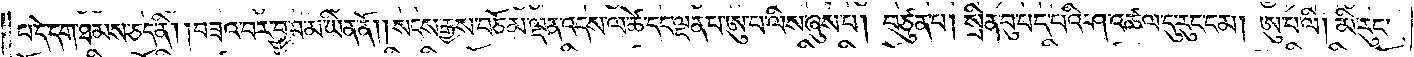པ་དེ་དག་ཐམས་ཅད་ནི། །བཟའ་བར་བྱ་བ་མ་ཡིན་ནོ། །སངས་རྒྱས་བཅོམ་ལྡན་འདས་ལ་ཚེ་དང་ལྡན་པ་ཨུ་པ་ལིས་ཞུས་པ། བཙུན་པ། སྲིན་བུ་པད་པའི་ཤ་འཚལ་དུ་རུང་ངམ། ཨུ་པ་ལི། མི་རུང་
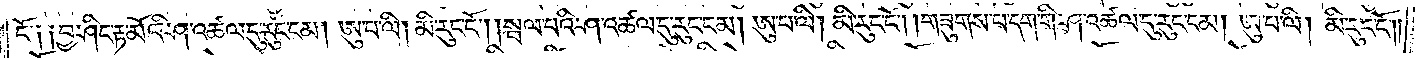ངོ༑ ༑བྱ་ཤིང་རྟ་མོའི་ཤ་འཚལ་དུ་རུང་ངམ། ཨུ་པ་ལི། མི་རུང་ངོ༌། །སྦལ་པའི་ཤ་འཚལ་དུ་རུང་ངམ། ཨུ་པ་ལི། མི་རུང་ངོ༌། །གཟུགས་པ་དག་གི་ཤ་འཚལ་དུ་རུང་ངམ། ཨུ་པ་ལི། མི་རུང་ངོ༌། །
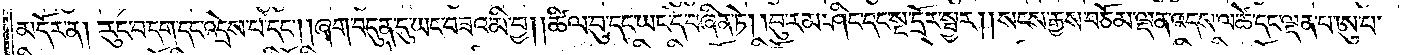མདོར་ན། རུང་བ་དག་དང་འདྲེས་པ་དང༌། །ཞག་བདུན་དུ་ཡང་བཟའ་མི་བྱ། །ཚིལ་བུ་དང་ཡང་དེ་བཞིན་ཏེ། །བུ་རམ་ཤིང་དང་སྔ་དྲོར་སྦྱར། །སངས་རྒྱས་བཅོམ་ལྡན་འདས་ལ་ཚེ་དང་ལྡན་པ་ཨུ་པ་
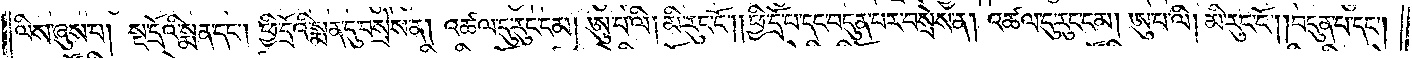ལིས་ཞུས་པ། སྔ་དྲོའི་སྨན་དང༌། ཕྱི་དྲོའི་སྨན་དུ་བསྲེས་ན། འཚལ་དུ་རུང་ངམ། ཨུ་པ་ལི། མི་རུང་ངོ༌། །ཕྱི་དྲོ་པ་དང་བདུན་པར་བསྲེས་ན། འཚལ་དུ་རུང་ངམ། ཨུ་པ་ལི། མི་རུང་ངོ༌། །བདུན་པ་དང༌།
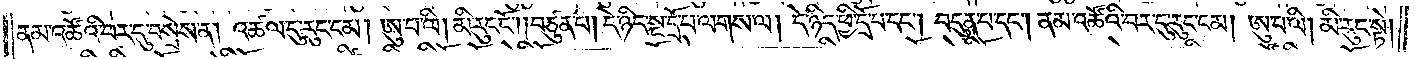ནམ་འཚོའི་བར་དུ་བསྲེས་ན། འཚལ་དུ་རུང་ངམ། ཨུ་པ་ལི། མི་རུང་ངོ༌། །བཙུན་པ། དེ་ཉིད་སྔ་དྲོ་པ་ལགས་ལ། དེ་ཉིད་ཕྱི་དྲོ་བ་དང༌། བདུན་པ་དང༌། ནམ་འཚོའི་བར་དུ་རུང་ངམ། ཨུ་པ་ལི། མི་རུང་སྟེ།
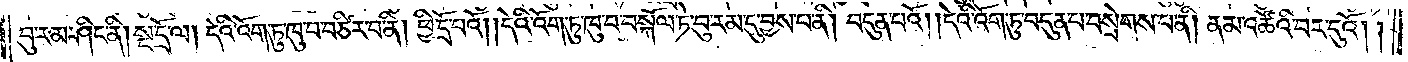བུ་རམ་ཤིང་ནི། སྔ་དྲོ་ལ། དེའི་འོག་ཏུ་ཁུ་བ་བཙིར་བ་ནི། ཕྱི་དྲོ་བའོ། །དེའི་འོག་ཏུ་ཁུ་བ་བསྐོལ་ཏེ་བུ་རམ་དུ་བྱས་པ་ནི། བདུན་པའོ། །དེའི་འོག་ཏུ་བདུན་པ་བསྲེགས་པ་ནི། ནམ་འཚོའི་བར་དུའོ། །
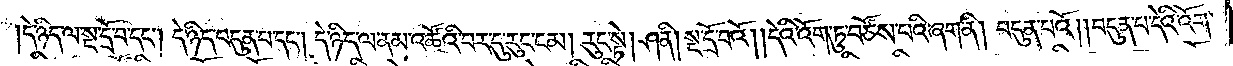དེ་ཉིད་ལ་སྔ་དྲོ་བ་དང༌། དེ་ཉིད་བདུན་པ་དང༌། དེ་ཉིད་ལ་ནམ་འཚོའི་བར་དུ་རུང་ངམ། རུང་སྟེ། ཤ་ནི། སྔ་དྲོ་བའོ། །དེའི་འོག་ཏུ་བཙོས་པའི་ཞག་ནི། བདུན་པའོ། །བདུན་པ་དེའི་འོག་
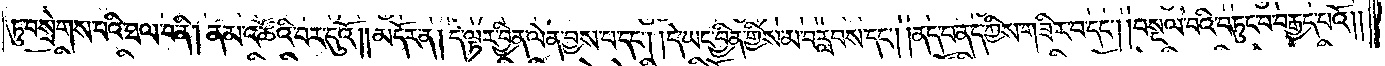ཏུ་བསྲེགས་པའི་ཐལ་བ་ནི། ནམ་འཚོའི་བར་དུའོ། །མདོར་ན། དེ་ལྟར་བྱིན་ལེན་བྱས་པ་དང༌། །དེ་ཡང་བྱིན་གྱིས་མ་བརླབས་དང༌། །ནད་པ་ནད་ཀྱིས་གཟིར་བ་དང༌། །བསྔལ་བའི་བཏུང་བ་བརྒྱད་པའོ། །
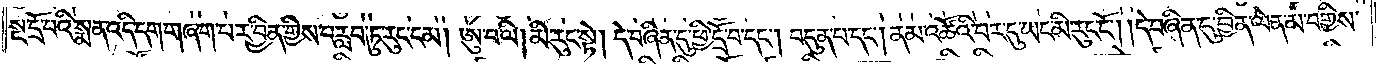སྔ་དྲོ་བའི་སྨན་འདི་དག་གཞག་པར་བྱིན་གྱིས་བརླབ་ཏུ་རུང་ངམ། ཨུ་པ་ལི། མི་རུང་སྟེ། དེ་བཞིན་དུ་ཕྱི་དྲོ་པ་དང༌། བདུན་པ་དང༌། ནམ་འཚོའི་བར་དུ་ཡང་མི་རུང་ངོ༌། །དེ་བཞིན་དུ་བྱིན་ལེན་མ་བགྱིས་
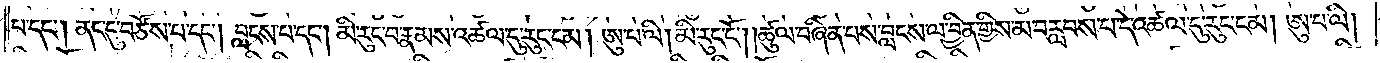པ་དང༌། ནང་དུ་བཙོས་པ་དང༌། བླངས་པ་དང༌། མི་རུང་བ་རྣམས་འཚལ་དུ་རུང་ངམ། ཨུ་པ་ལི། མི་རུང་ངོ༌། །ཚུལ་བཞིན་པས་བླངས་ལ་བྱིན་གྱིས་མ་བརླབས་པ་དེ་འཚལ་དུ་རུང་ངམ། ཨུ་པ་ལི།
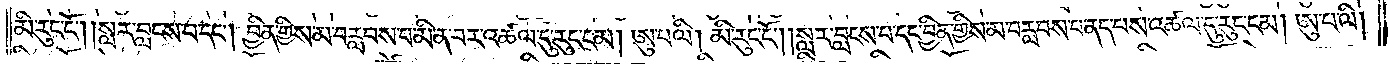མི་རུང་ངོ༌། །སླར་བླངས་པ་དང༌། བྱིན་གྱིས་མ་བརླབས་པ་མི་ན་བར་འཚལ་དུ་རུང་ངམ། ཨུ་པ་ལི། མི་རུང་ངོ༌། །སླར་བླངས་པ་དང་བྱིན་གྱིས་མ་བརླབས་པ་ནད་པས་འཚལ་དུ་རུང་ངམ། ཨུ་པ་ལི།
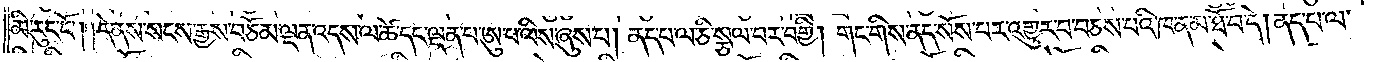མི་རུང་ངོ༌། །དེ་ནས་སངས་རྒྱས་བཅོམ་ལྡན་འདས་ལ་ཚེ་དང་ལྡན་པ་ཨུ་པ་ལིས་ཞུས་པ། ནད་པ་ལ་ཅི་སྩལ་པར་བགྱི། གང་གིས་ནད་སོས་པར་འགྱུར་བ་བཅས་པའི་ཁ་ན་མ་ཐོ་བ་དེ། ནད་པ་ལ་
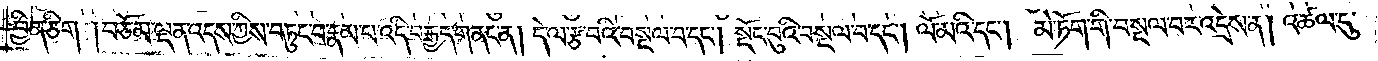བྱིན་ཅིག །བཅོམ་ལྡན་འདས་ཀྱིས་བཏུང་བ་རྣམ་པ་འདི་བརྒྱད་གནང་ན། དེ་ལ་རྩ་བའི་བསྔལ་བ་དང༌། སྡོང་བུའི་བསྔལ་བ་དང༌། ལོ་མའི་དང༌། མེ་ཏོག་གི་བསྔལ་བར་འདྲེས་ན། འཚལ་དུ་
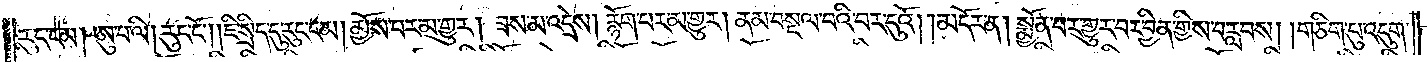རུང་ངམ། ཨུ་པ་ལི། རུང་ངོ༌། །ཇི་སྲིད་དུ་རུང་ངམ། མྱོས་པར་མ་གྱུར། ཟས་མ་འདྲེས། རྙོག་པར་མ་གྱུར། ནམ་བསྔལ་བའི་བར་དུའོ། །མདོར་ན། སྨྱོན་པར་གྱུར་བར་བྱིན་གྱིས་བརླབས། །གཅིག་པུ་འདུག་
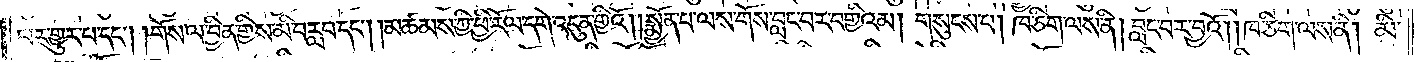པར་གྱུར་པ་དང༌། །གོས་ལ་བྱིན་གྱིས་མི་བརླབ་དང༌། །མཚམས་ཀྱི་ཕྱི་རོལ་དགེ་འདུན་གྱིའོ། སྨྱོན་པ་ལས་གོས་བླང་བར་བགྱིའམ། གསུངས་པ། ཁ་ཅིག་ལས་ནི། བླང་བར་བྱའོ། །ཁ་ཅིག་ལས་ནི། མི་
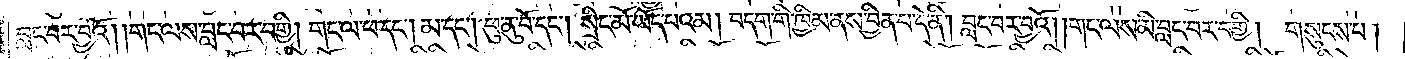བླང་བར་བྱའོ། །གང་ལས་བླང་བར་བགྱི། གང་ལ་ཕ་དང༌། མ་དང༌། ཕུ་ནུ་བོ་དང༌། སྲིང་མོ་ཡོད་པའམ། བདག་གི་ཁྱིམ་ནས་བྱིན་པ་དེ་ནི། བླང་བར་བྱའོ། །གང་ལས་མི་བླང་བར་བགྱི། གསུངས་པ།
